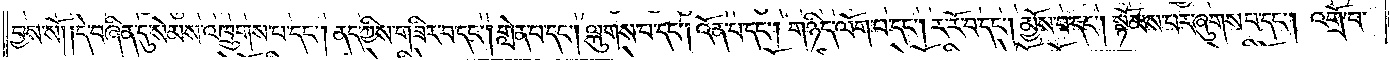བྱས་སོ། །དེ་བཞིན་དུ་སེམས་འཁྲུགས་པ་དང༌། ནད་ཀྱིས་གཟིར་བ་དང༌། གླེན་པ་དང༌། ལྐུགས་པ་དང༌། འོན་པ་དང༌། གཉིད་ལོག་པ་དང༌། ར་རོ་བ་དང༌། མྱོས་པ་དང༌། སྙོམས་པར་ཞུགས་པ་དང༌། འགྲོ་བ་
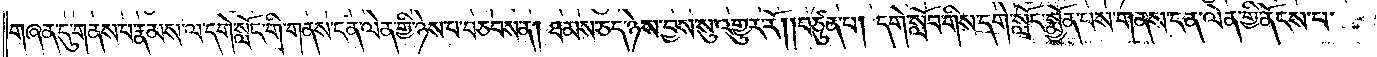གཞན་དུ་གནས་པ་རྣམས་ལ་དགེ་སློང་གི་གནས་ངན་ལེན་གྱི་ཉེས་པ་བཅབས་ན། ཐམས་ཅད་ཉེས་བྱས་སུ་འགྱུར་རོ། །བཙུན་པ། དགེ་སློབ་གིས་དགེ་སློང་སྨྱོན་པས་གནས་ངན་ལེན་གྱི་ནོངས་པ་
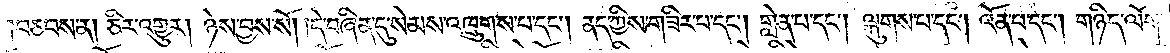།བཅབས་ན། ཅིར་འགྱུར། ཉེས་བྱས་སོ། །དེ་བཞིན་དུ་སེམས་འཁྲུགས་པ་དང༌། ནད་ཀྱིས་གཟིར་པ་དང༌། གླེན་པ་དང༌། ལྐུགས་པ་དང༌། འོན་པ་དང༌། གཉིད་ལོག་
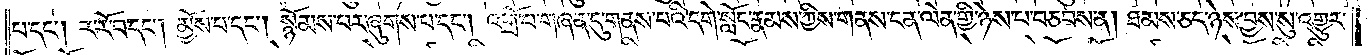པ་དང༌། ར་རོ་བ་དང༌། མྱོས་པ་དང༌། སྙོམས་པར་ཞུགས་པ་དང༌། འགྲོ་བ་གཞན་དུ་གནས་པའི་དགེ་སློང་རྣམས་ཀྱིས་གནས་ངན་ལེན་གྱི་ཉེས་པ་བཅབས་ན། ཐམས་ཅད་ཉེས་བྱས་སུ་འགྱུར་
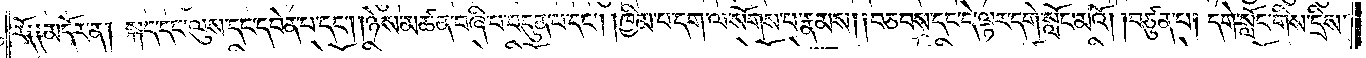རོ༑ ༑མདོར་ན། སྐད་དང་ལུས་དང་དབེན་པ་དང༌། །ཉེས་མཚན་བཞི་པ་བདུན་པ་དང༌། །ཁྱིམ་པ་དག་ལ་སོགས་པ་རྣམས། །བཅབས་དང་དེ་ལྟར་དགེ་སློང་མའོ། །བཙུན་པ། དགེ་སློང་གིས་དྲིས་
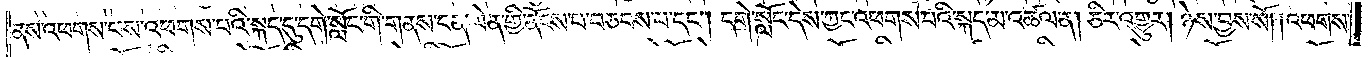ནས་འཕགས་པས་འཕགས་པའི་སྐད་དུ་དགེ་སློང་གི་གནས་ངན་ལེན་གྱི་ནོངས་པ་བཅབས་པ་དང༌། དགེ་སློང་དེས་ཀྱང་འཕགས་པའི་སྐད་མ་འཚལ་ན། ཅིར་འགྱུར། ཉེས་བྱས་སོ། །འཕགས་
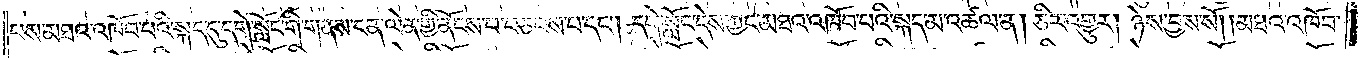པས་མཐའ་འཁོབ་པའི་སྐད་དུ་དགེ་སློང་གི་གནས་ངན་ལེན་གྱི་ནོངས་པ་བཅབས་པ་དང༌། དགེ་སློང་དེས་ཀྱང་མཐའ་འཁོབ་པའི་སྐད་མ་འཚལ་ན། ཅིར་འགྱུར། ཉེས་བྱས་སོ། །མཐའ་འཁོབ་
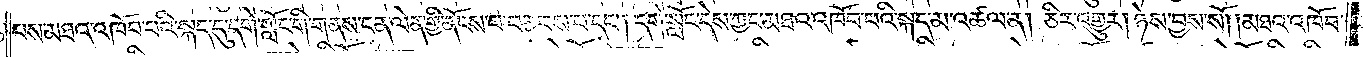པས་མཐའ་འཁོབ་པའི་སྐད་དུ་དགེ་སློང་གི་གནས་ངན་ལེན་གྱི་ནོངས་པ་བཅབས་པ་དང༌། དགེ་སློང་དེས་ཀྱང་མཐའ་འཁོབ་པའི་སྐད་མ་འཚལ་ན། ཅིར་འགྱུར། ཉེས་བྱས་སོ། །མཐའ་འཁོབ་
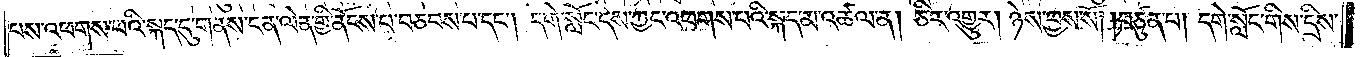པས་འཕགས་པའི་སྐད་དུ་གནས་ངན་ལེན་གྱི་ནོངས་པ་བཅབས་པ་དང༌། དགེ་སློང་དེས་ཀྱང་འཕགས་པའི་སྐད་མ་འཚལ་ན། ཅིར་འགྱུར། ཉེས་བྱས་སོ། །བཙུན་པ། དགེ་སློང་གིས་དྲིས་
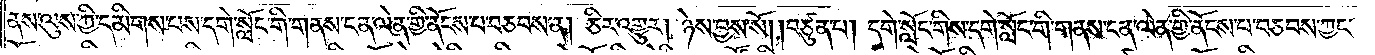ནས་ལུས་ཀྱི་དམིགས་པས་དགེ་སློང་གི་གནས་ངན་ལེན་གྱི་ནོངས་པ་བཅབས་ན། ཅིར་འགྱུར། ཉེས་བྱས་སོ། །བཙུན་པ། དགེ་སློང་གིས་དགེ་སློང་གི་གནས་ངན་ལེན་གྱི་ནོངས་པ་བཅབས་ཀྱང་
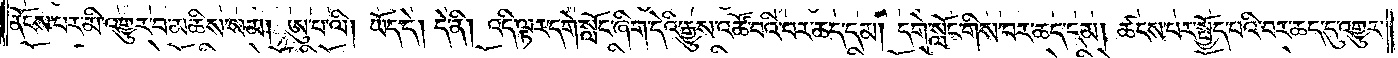ནོངས་པར་མི་འགྱུར་བ་མཆིས་སམ། ཨུ་པ་ལི། ཡོད་དེ། དེ་ནི། འདི་ལྟར་དགེ་སློང་ཞིག་དེའི་རྒྱུས་འཚོ་བའི་བར་ཆད་དམ། དགེ་སློང་གིས་བར་ཆད་དམ། ཚངས་པར་སྤྱོད་པའི་བར་ཆད་དུ་འགྱུར་
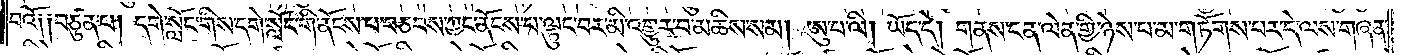བའོ༑ ༑བཙུན་པ། དགེ་སློང་གིས་དགེ་སློང་གི་ནོངས་པ་བཅབས་ཀྱང་ནོངས་པ་ལྟུང་བར་མི་འགྱུར་བ་མཆིས་སམ། ཨུ་པ་ལི། ཡོད་དེ། གནས་ངན་ལེན་གྱི་ཉེས་པ་མ་གཏོགས་པར་དེ་ལས་གཞན་
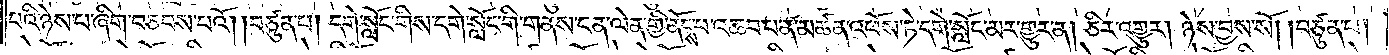པའི་ཉེས་པ་ཞིག་བཅབས་པའོ། །བཙུན་པ། དགེ་སློང་གིས་དགེ་སློང་གི་གནས་ངན་ལེན་གྱི་ནོངས་པ་འཆབ་པ་ན་མཚན་འཕོས་ཏེ་དགེ་སློང་མར་གྱུར་ན། ཅིར་འགྱུར། ཉེས་བྱས་སོ། །བཙུན་པ།
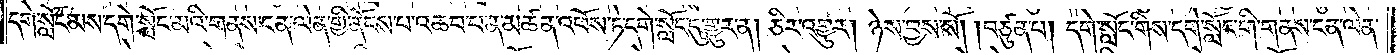དགེ་སློང་མས་དགེ་སློང་མའི་གནས་ངན་ལེན་གྱི་ནོངས་པ་འཆབ་པ་ན་མཚན་འཕོས་ཏེ་དགེ་སློང་དུ་གྱུར་ན། ཅིར་འགྱུར། ཉེས་བྱས་སོ། །བཙུན་པ། དགེ་སློང་གིས་དགེ་སློང་གི་གནས་ངན་ལེན་
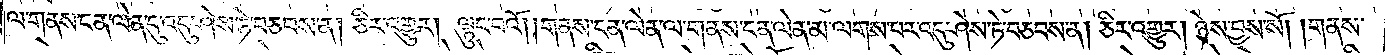ལ་གནས་ངན་ལེན་དུ་འདུ་ཤེས་ཏེ་བཅབས་ན། ཅིར་འགྱུར། ལྟུང་བའོ། །གནས་ངན་ལེན་ལ་གནས་ངན་ལེན་མ་ལགས་པར་འདུ་ཤེས་ཏེ་བཅབས་ན། ཅིར་འགྱུར། ཉེས་བྱས་སོ། །གནས་
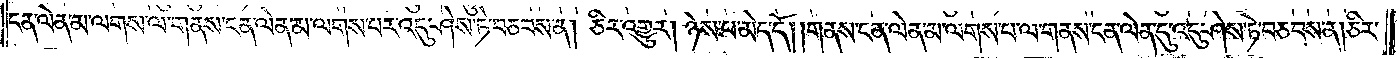ངན་ལེན་མ་ལགས་ལ་གནས་ངན་ལེན་མ་ལགས་པར་འདུ་ཤེས་ཏེ་བཅབས་ན། ཅིར་འགྱུར། ཉེས་པ་མེད་དོ། །གནས་ངན་ལེན་མ་ལགས་པ་ལ་གནས་ངན་ལེན་དུ་འདུ་ཤེས་ཏེ་བཅབས་ན། ཅིར་
